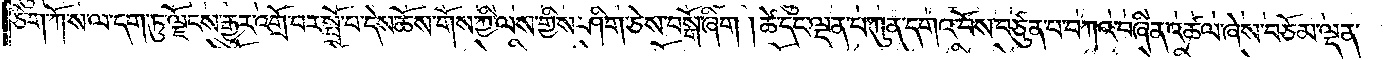ཅིག་ཀོ་ས་ལ་དག་ཏུ་ལྗོངས་རྒྱུར་འགྲོ་བར་སྤྲོ་བ་དེས་ཆོས་གོས་ཀྱི་ལས་གྱིས་ཤིག་ཅེས་བསྒོ་ཞིག །ཚེ་དང་ལྡན་པ་ཀུན་དགའ་བོས་བཙུན་པ་བཀའ་བཞིན་འཚལ་ཞེས་བཅོམ་ལྡན་
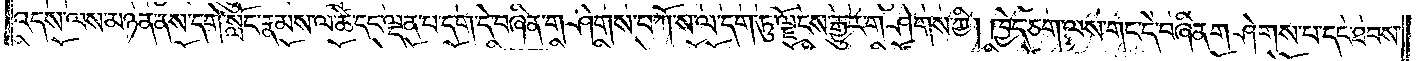འདས་ལས་མཉན་ནས་དགེ་སློང་རྣམས་ལ་ཚེ་དང་ལྡན་པ་དག་དེ་བཞིན་གཤེགས་པ་ཀོ་ས་ལ་དག་ཏུ་ལྗོངས་རྒྱུར་གཤེགས་ཀྱི། ཁྱེད་ཅག་ལས་གང་དེ་བཞིན་གཤེགས་པ་དང་ཐབས་
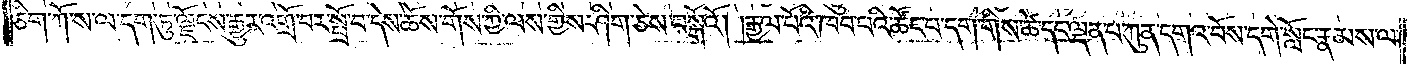ཅིག་ཀོ་ས་ལ་དག་ཏུ་ལྗོངས་རྒྱུར་འགྲོ་བར་སྤྲོ་བ་དེས་ཆོས་གོས་ཀྱི་ལས་གྱིས་ཤིག་ཅེས་བསྒོའོ། །རྒྱལ་པོའི་ཁབ་པའི་ཚོང་པ་དག་གིས་ཚེ་དང་ལྡན་པ་ཀུན་དགའ་བོས་དགེ་སློང་རྣམས་ལ་
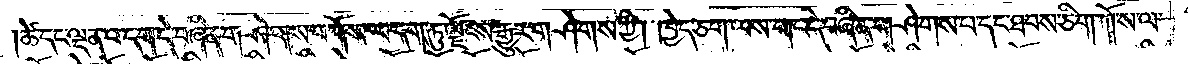ཚེ་དང་ལྡན་པ་དག་དེ་བཞིན་གཤེགས་པ་ཀོ་ས་ལ་དག་ཏུ་ལྗོངས་རྒྱུར་གཤེགས་ཀྱི། ཁྱེད་ཅག་ལས་གང་དེ་བཞིན་གཤེགས་པ་དང་ཐབས་ཅིག་ཀོ་ས་ལ་
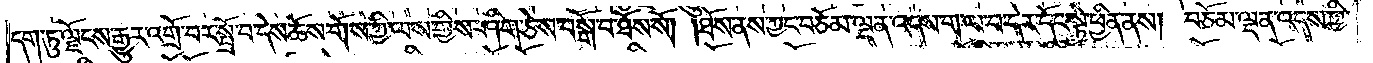དག་ཏུ་ལྗོངས་རྒྱུར་འགྲོ་བར་སྤྲོ་བ་དེས་ཆོས་གོས་ཀྱི་ལས་གྱིས་ཤིག་ཅེས་བསྒོ་བ་ཐོས་སོ། །ཐོས་ནས་ཀྱང་བཅོམ་ལྡན་འདས་ག་ལ་བ་དེར་དོང་སྟེ་ཕྱིན་ནས། བཅོམ་ལྡན་འདས་ཀྱི་
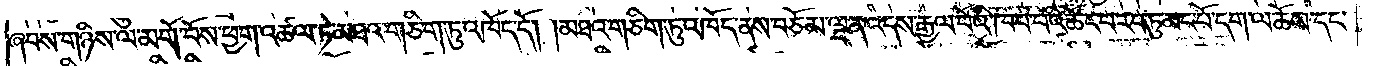ཞབས་གཉིས་ལ་མགོ་བོས་ཕྱག་འཚལ་ཏེ་མཐའ་གཅིག་ཏུ་འཁོད་དོ། །མཐའ་གཅིག་ཏུ་འཁོད་ནས་བཅོམ་ལྡན་འདས་རྒྱལ་པོའི་ཁབ་པའི་ཚོང་བ་རབ་ཏུ་མང་པོ་དག་ལ་ཆོས་དང་
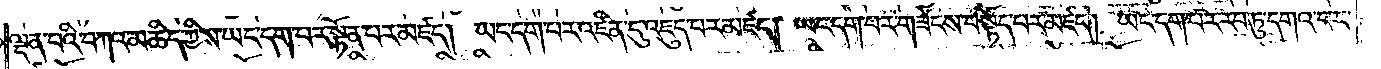ལྡན་པའི་བཀའ་མཆིད་ཀྱིས་ཡང་དག་པར་སྟོན་པར་མཛད། ཡང་དག་པར་འཛིན་དུ་འཇུད་པར་མཛད། ཡང་དག་པར་གཟེངས་བསྟོད་པར་མཛད། ཡང་དག་པར་རབ་ཏུ་དགའ་བར་
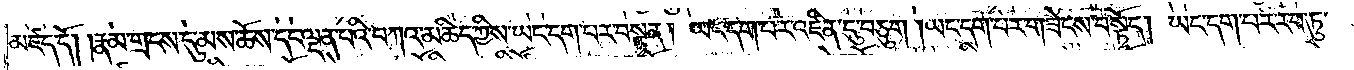མཛད་དོ། །རྣམ་གྲངས་དུ་མས་ཆོས་དང་ལྡན་པའི་བཀའ་མཆིད་ཀྱིས་ཡང་དག་པར་བསྟན། ཡང་དག་པར་འཛིན་དུ་བཅུག །ཡང་དག་པར་གཟེངས་བསྟོད། ཡང་དག་པར་རབ་ཏུ་
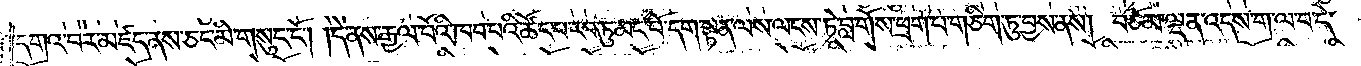དགའ་བར་མཛད་ནས་ཅང་མི་གསུང་ངོ༌། །དེ་ནས་རྒྱལ་པོའི་ཁབ་པའི་ཚོང་པ་རབ་ཏུ་མང་པོ་དག་སྟན་ལས་ལངས་ཏེ་བླ་གོས་ཕྲག་པ་གཅིག་ཏུ་བྱས་ནས། བཅོམ་ལྡན་འདས་ག་ལ་བ་དེ་
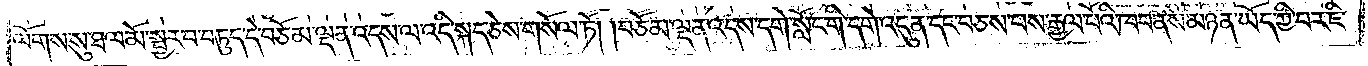ལོགས་སུ་ཐལ་མོ་སྦྱར་བ་བཏུད་དེ་བཅོམ་ལྡན་འདས་ལ་འདི་སྐད་ཅེས་གསོལ་ཏོ། །བཅོམ་ལྡན་འདས་དགེ་སློང་གི་དགེ་འདུན་དང་བཅས་པས་རྒྱལ་པོའི་ཁབ་ནས་མཉན་ཡོད་ཀྱི་བར་ཇི་
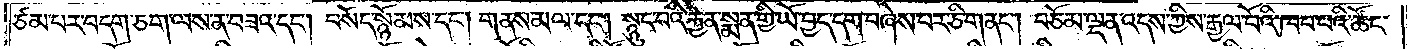ཙམ་པར་བདག་ཅག་ལས་ན་བཟའ་དང༌། བསོད་སྙོམས་དང༌། གནས་མལ་དང༌། སྙུང་བའི་རྐྱེན་སྨན་གྱི་ཡོ་བྱད་དག་བཞེས་པར་ཅི་གནང༌། བཅོམ་ལྡན་འདས་ཀྱིས་རྒྱལ་པོའི་ཁབ་པའི་ཚོང་
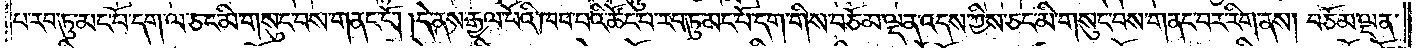པ་རབ་ཏུ་མང་པོ་དག་ལ་ཅང་མི་གསུང་བས་གནང་ངོ༌། །དེ་ནས་རྒྱལ་པོའི་ཁབ་པའི་ཚོང་པ་རབ་ཏུ་མང་པོ་དག་གིས་བཅོམ་ལྡན་འདས་ཀྱིས་ཅང་མི་གསུང་པས་གནང་བར་རིག་ནས། བཅོམ་ལྡན་
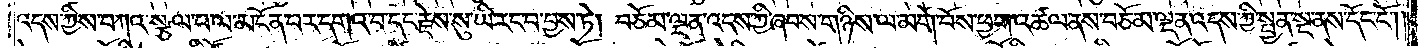འདས་ཀྱིས་བཀའ་སྩལ་པ་ལ་མངོན་པར་དགའ་བ་དང་རྗེས་སུ་ཡི་རང་བ་བྱས་ཏེ། བཅོམ་ལྡན་འདས་ཀྱི་ཞབས་གཉིས་ལ་མགོ་བོས་ཕྱག་འཚལ་ནས་བཅོམ་ལྡན་འདས་ཀྱི་སྤྱན་སྔ་ནས་དོང་ངོ༌། །
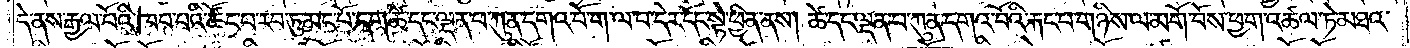དེ་ནས་རྒྱལ་པོའི་ཁབ་པའི་ཚོང་པ་རབ་ཏུ་མང་པོ་དག་ཚེ་དང་ལྡན་པ་ཀུན་དགའ་བོ་ག་ལ་བ་དེར་དོང་སྟེ་ཕྱིན་ནས། ཚེ་དང་ལྡན་པ་ཀུན་དགའ་བོའི་རྐང་པ་གཉིས་ལ་མགོ་བོས་ཕྱག་འཚལ་ཏེ་མཐའ་
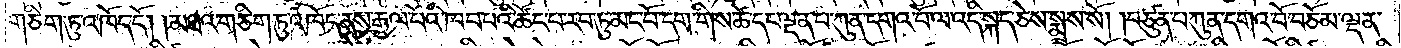གཅིག་ཏུ་འཁོད་དོ། །མཐའ་གཅིག་ཏུ་འཁོད་ནས་རྒྱལ་པོའི་ཁབ་པའི་ཚོང་པ་རབ་ཏུ་མང་པོ་དག་གིས་ཚེ་དང་ལྡན་པ་ཀུན་དགའ་བོ་ལ་འདི་སྐད་ཅེས་སྨྲས་སོ། །བཙུན་པ་ཀུན་དགའ་བོ་བཅོམ་ལྡན་
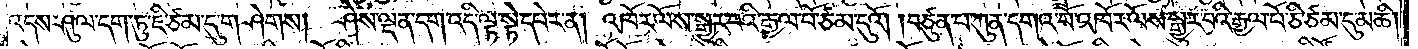འདས་ཤུལ་དག་ཏུ་ཇི་ཙམ་དུ་གཤེགས། ཤེས་ལྡན་དག་འདི་ལྟ་སྟེ་དཔེར་ན། འཁོར་ལོས་སྒྱུར་བའི་རྒྱལ་པོ་ཙམ་དུའོ། །བཙུན་པ་ཀུན་དགའ་བོ་འཁོར་ལོས་སྒྱུར་བའི་རྒྱལ་པོ་ཅི་ཙམ་དུ་མཆི།
